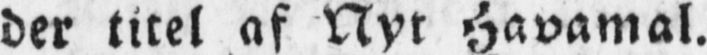der titel af Nyt Havamal.
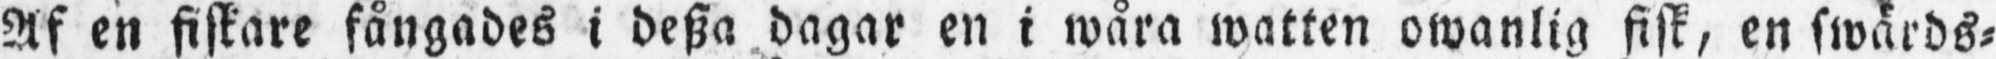Af en fiskare fångades i dessa dagar en i wåra watten owanlig fisk, en swärds-
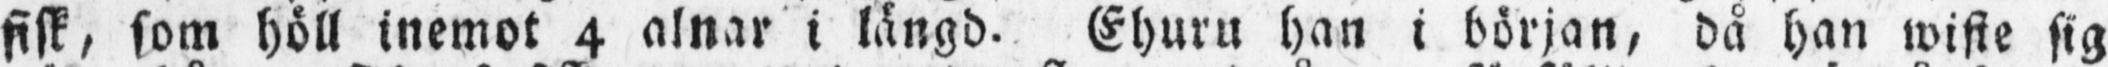fisk, som höll inemot 4 alnar i längd. Ehuru han i början, då han wiste sig
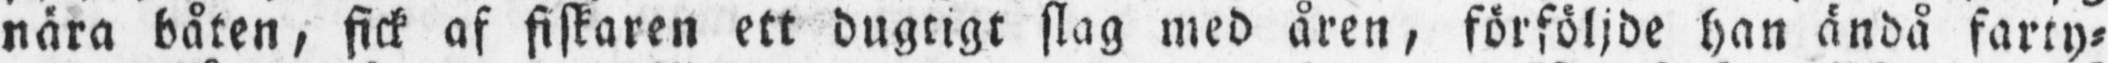nära båten, fick af fiskaren ett dugtigt slag med åren, förföljde han ändå farty-
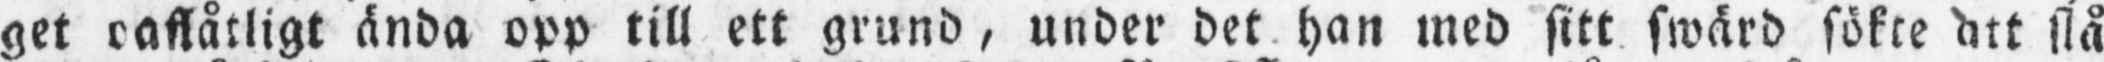get oaflåtligt ända opp till ett grund, under det han med sitt swärd sökte att slå
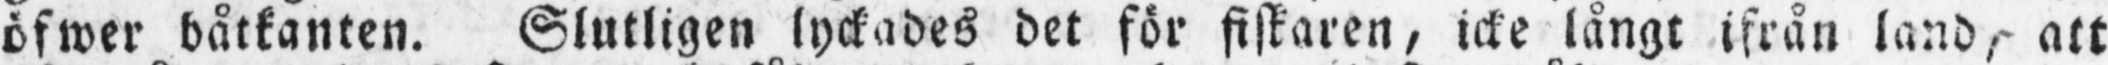öfwer båtkanten. Slutligen lyckades det för fiskaren, icke långt ifrån land, att
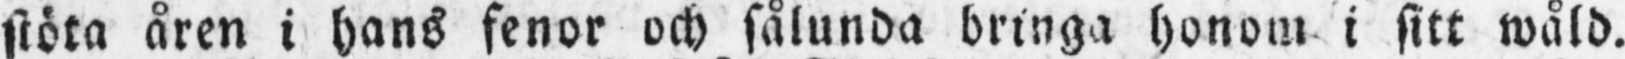stöta åren i hans fenor och sålunda bringa honom i sitt wåld.
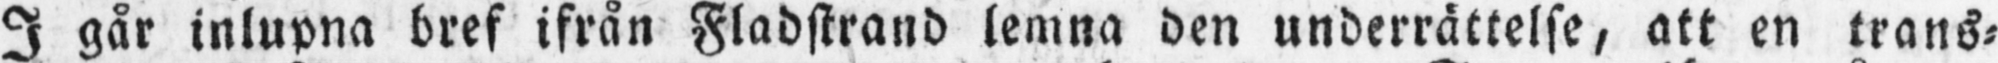I går inlupna bref ifrån Fladstrand lemna den underrättelse, att en trans-
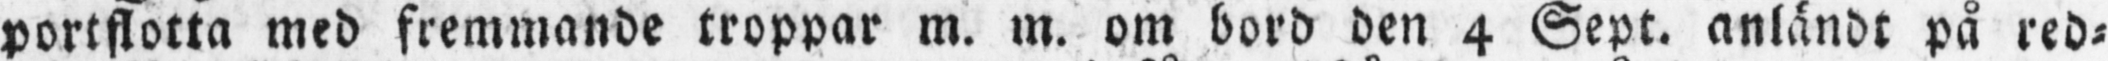portflotta med fremmande troppar m. m. om bord den 4 Sept. anländt på red-
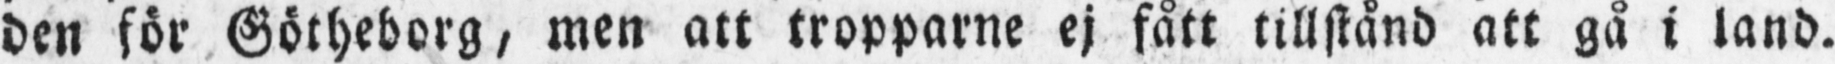den för Götheborg, men att tropparne ej fått tillstånd att gå i land.
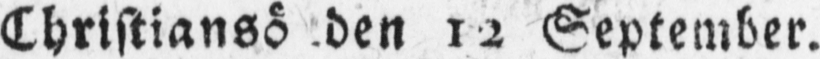Christiansö den 12 September.
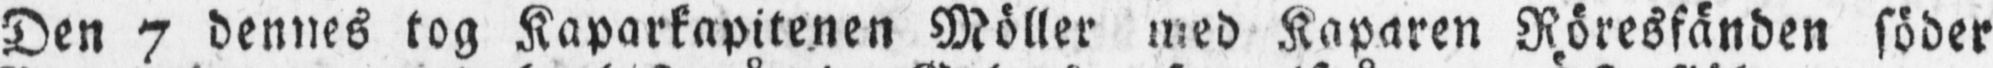Den 7 dennes tog Kaparkapitenen Möller med Kaparen Röresfänden söder
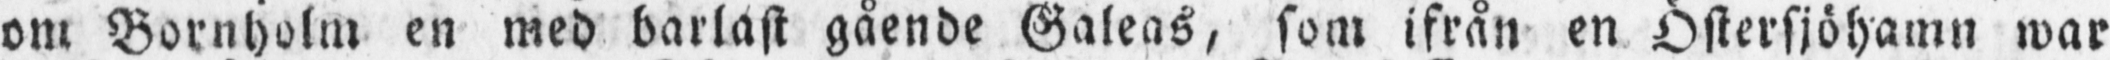om Bornholm en med barlast gående Galeas, som ifrån en Östersjöhamn war
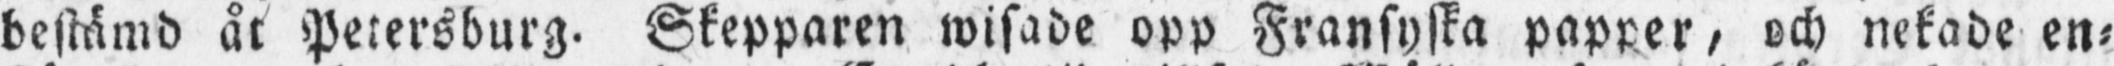bestämd åt Petersburg. Skepparen wisade opp Fransyska papper, och nekade en-
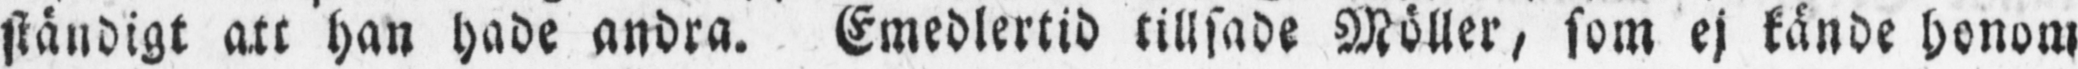ständigt att han hade andra. Emedlertid tillsade Möller, som ej kände honom,
